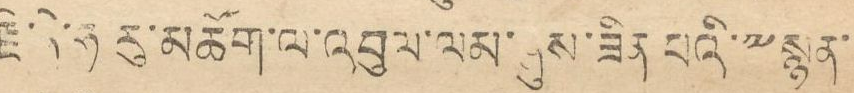རྗེ་ནེ་ཧ རུ་མཆོག་ལ་འབུལ་ལམ་ཞུས་ཟིན པའི་༸སྙན་
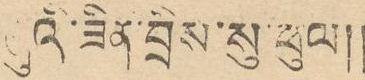ཞུའི་ཟིན་བྲིས་སུ་ཕུལ༎
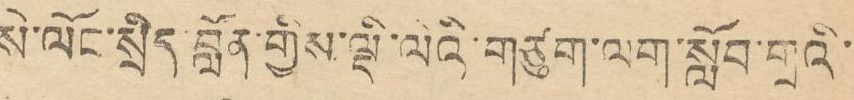སེ་ལོང་སྲིད་བློན་གྱིས་ལྡི་ལིའི་གཙུག་ལག་སློབ་གྲའི་
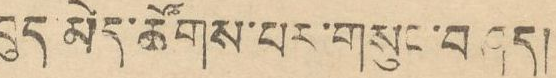བུད་མེད་ཚོགས་པར་གསུང་བཤད།
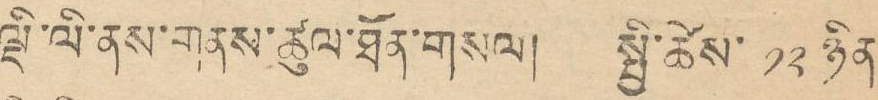ལྡི་ལི་ནས་གནས་ཚུལ་ཐོན་གསལ། སྤྱི་ཚེས་ ༡༢ ཉིན
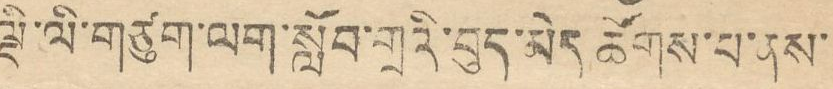ལྡི་ལི་གཙུག་ལག་སློབ་གྲའི་བུད་མེད་ཚོགས་པ་ནས་
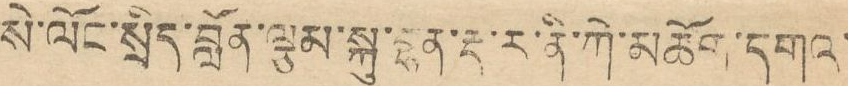སེ་ལོང་སྲིད་བློན་ལྕམ་སྐུ་བྷན་རྡ་ར་ནི་ཀེ་མཆོག་དགའ་
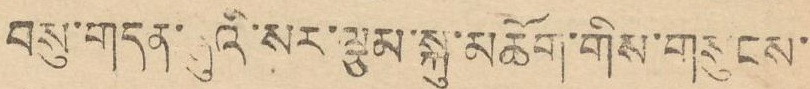བསུ་གདན་ཞུའི་སར་ལྕམ་སྐུ་མཆོག་གིས་གསུངས་
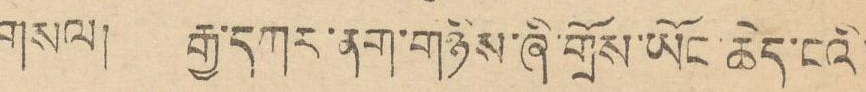གསལ། རྒྱ་དཀར་ནག་གཉིས་ཞི་གྲོས་ཡོང་ཆེད་ངའི་
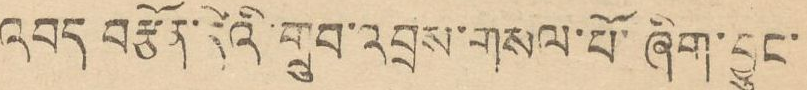འབད བརྩོན་དེའི་གྲུབ་འབྲས་གསལ་པོ་ཞིག་བྱུང་
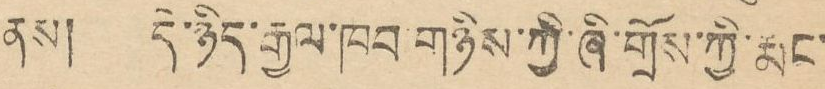ནས། དེ་ཉིད་རྒྱལ་ཁབ་གཉིས་ཀྱི་ཞི་གྲོས་ཀྱི་རྨང་
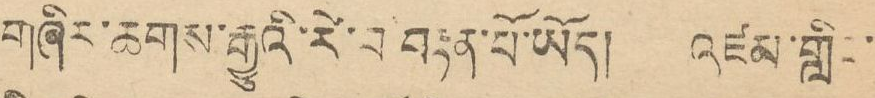གཞིར་ཆགས་རྒྱུའི་རེ་བ་བརྟན་པོ་ཡོད། འཛམ་གླིང་
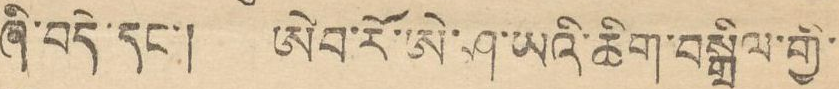ཞི་བདེ་དང་། ཨེབ་རོ་ཨེ་ཤ་ཡའི་ཆིག་བསྒྲིལ་གྱི་
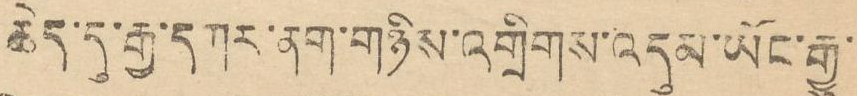ཆེད་དུ་རྒྱ་དཀར་ནག་གཉིས་འགྲིགས་འདུམ་ཡོང་རྒྱུ་
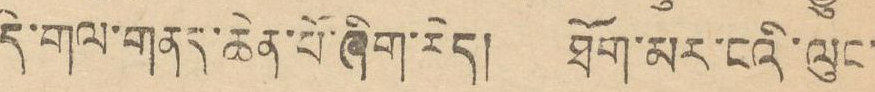དེ་གལ་གནད་ཆེན་པོ་ཞིག་རེད། ཐོག་མར་ངའི་ལུང་
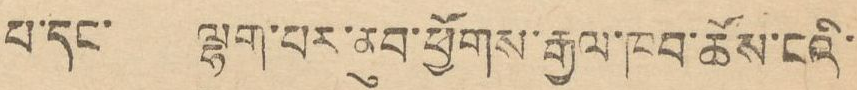པ་དང་། ལྷག་པར་ནུས་ཕྱོགས་རྒྱལ་ཁབ་ཚོས་ངའི་
